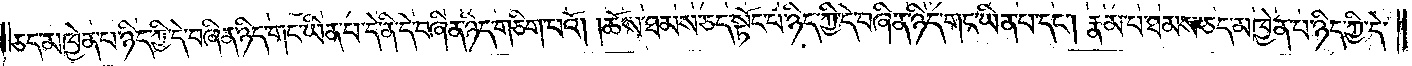ཅད་མཁྱེན་པ་ཉིད་ཀྱི་དེ་བཞིན་ཉིད་གང་ཡིན་པ་དེ་ནི་དེ་བཞིན་ཉིད་གཅིག་པའོ། །ཆོས་ཐམས་ཅད་སྟོང་པ་ཉིད་ཀྱི་དེ་བཞིན་ཉིད་གང་ཡིན་པ་དང༌། རྣམ་པ་ཐམས་ཅད་མཁྱེན་པ་ཉིད་ཀྱི་དེ་
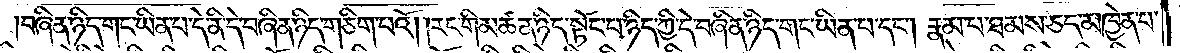བཞིན་ཉིད་གང་ཡིན་པ་དེ་ནི་དེ་བཞིན་ཉིད་གཅིག་པའོ། །རང་གི་མཚན་ཉིད་སྟོང་པ་ཉིད་ཀྱི་དེ་བཞིན་ཉིད་གང་ ཡིན་པ་དང༌། རྣམ་པ་ཐམས་ཅད་མཁྱེན་པ་
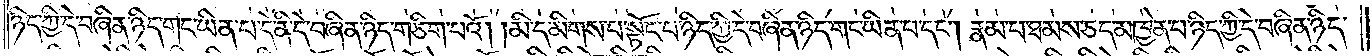ཉིད་ཀྱི་དེ་བཞིན་ཉིད་གང་ཡིན་པ་དེ་ནི་དེ་བཞིན་ཉིད་གཅིག་པའོ། །མི་དམིགས་པ་སྟོང་པ་ཉིད་ཀྱི་དེ་བཞིན་ཉིད་གང་ཡིན་པ་དང༌། རྣམ་པ་ཐམས་ཅད་མཁྱེན་པ་ཉིད་ཀྱི་དེ་བཞིན་ཉིད་
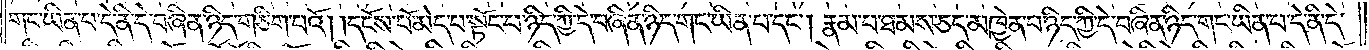གང་ཡིན་པ་དེ་ནི་དེ་བཞིན་ཉིད་གཅིག་པའོ། །དངོས་པོ་མེད་པ་སྟོང་པ་ཉིད་ཀྱི་དེ་བཞིན་ཉིད་གང་ཡིན་པ་དང༌། རྣམ་པ་ཐམས་ཅད་མཁྱེན་པ་ཉིད་ཀྱི་དེ་བཞིན་ཉིད་གང་ཡིན་པ་དེ་ནི་དེ་
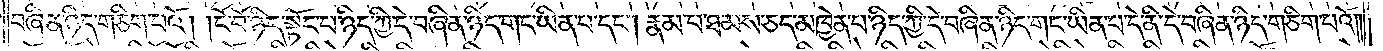བཞིན་ཉིད་གཅིག་པའོ། །ངོ་བོ་ཉིད་སྟོང་པ་ཉིད་ཀྱི་དེ་བཞིན་ཉིད་གང་ཡིན་པ་དང༌། རྣམ་པ་ཐམས་ཅད་མཁྱེན་པ་ཉིད་ཀྱི་དེ་བཞིན་ཉིད་གང་ཡིན་པ་དེ་ནི་དེ་བཞིན་ཉིད་གཅིག་པའོ༎
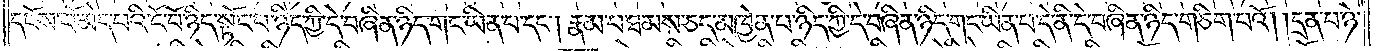དངོས་པོ་མེད་པའི་ངོ་བོ་ཉིད་སྟོང་པ་ཉིད་ཀྱི་དེ་བཞིན་ཉིད་གང་ཡིན་པ་དང༌། རྣམ་པ་ཐམས་ཅད་མཁྱེན་པ་ཉིད་ཀྱི་དེ་བཞིན་ཉིད་གང་ཡིན་པ་དེ་ནི་དེ་བཞིན་ཉིད་གཅིག་པའོ། །དྲན་པ་ཉེ་
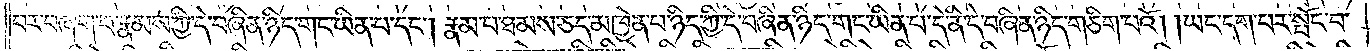བར་བཞག་པ་རྣམས་ཀྱི་དེ་བཞིན་ཉིད་གང་ཡིན་པ་དང༌། རྣམ་པ་ཐམས་ཅད་མཁྱེན་པ་ཉིད་ཀྱི་དེ་བཞིན་ཉིད་གང་ཡིན་པ་དེ་ནི་དེ་བཞིན་ཉིད་གཅིག་པའོ། །ཡང་དག་པར་སྤོང་བ་
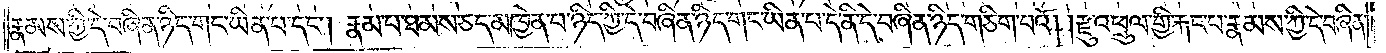རྣམས་ཀྱི་དེ་བཞིན་ཉིད་གང་ཡིན་པ་དང༌། རྣམ་པ་ཐམས་ཅད་མཁྱེན་པ་ཉིད་ཀྱི་དེ་བཞིན་ཉིད་གང་ཡིན་པ་དེ་ནི་དེ་བཞིན་ཉིད་གཅིག་པའོ། །རྫུ་འཕྲུལ་གྱི་རྐང་པ་རྣམས་ཀྱི་དེ་བཞིན་
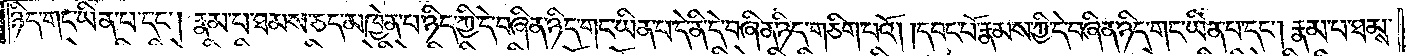ཉིད་གང་ཡིན་པ་དང༌། རྣམ་པ་ཐམས་ཅད་མཁྱེན་པ་ཉིད་ཀྱི་དེ་བཞིན་ཉིད་གང་ཡིན་པ་དེ་ནི་དེ་བཞིན་ཉིད་གཅིག་པའོ། །དབང་པོ་རྣམས་ཀྱི་དེ་བཞིན་ཉིད་གང་ཡིན་པ་དང༌། རྣམ་པ་ཐམས་
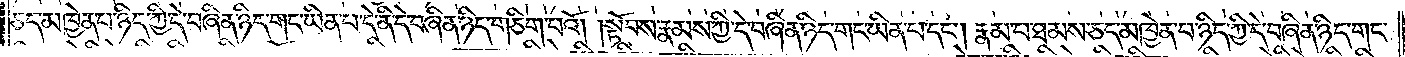ཅད་མཁྱེན་པ་ཉིད་ཀྱི་དེ་བཞིན་ཉིད་གང་ཡིན་པ་དེ་ནི་དེ་བཞིན་ཉིད་གཅིག་པའོ། །སྟོབས་རྣམས་ཀྱི་དེ་བཞིན་ཉིད་གང་ཡིན་པ་དང༌། རྣམ་པ་ཐམས་ཅད་མཁྱེན་པ་ཉིད་ཀྱི་དེ་བཞིན་ཉིད་གང་
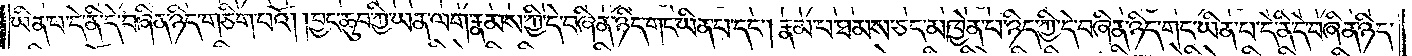ཡིན་པ་དེ་ནི་དེ་བཞིན་ཉིད་གཅིག་པའོ། །བྱང་ཆུབ་ཀྱི་ཡན་ལག་རྣམས་ཀྱི་དེ་བཞིན་ཉིད་གང་ཡིན་པ་དང༌། རྣམ་པ་ཐམས་ཅད་མཁྱེན་པ་ཉིད་ཀྱི་དེ་བཞིན་ཉིད་གང་ཡིན་པ་དེ་ནི་དེ་བཞིན་ཉིད་
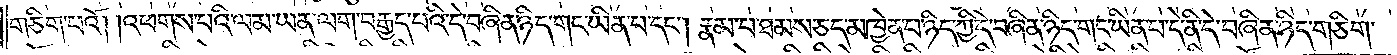གཅིག་པའོ། །འཕགས་པའི་ལམ་ཡན་ལག་བརྒྱད་པའི་དེ་བཞིན་ཉིད་གང་ཡིན་པ་དང༌། རྣམ་པ་ཐམས་ཅད་མཁྱེན་པ་ཉིད་ཀྱི་དེ་བཞིན་ཉིད་གང་ཡིན་པ་དེ་ནི་དེ་བཞིན་ཉིད་གཅིག་
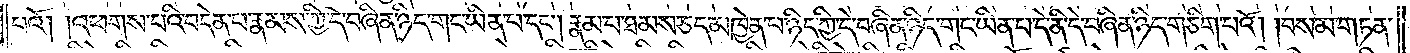པའོ། །འཕགས་པའི་བདེན་པ་རྣམས་ཀྱི་དེ་བཞིན་ཉིད་གང་ཡིན་པ་དང༌། རྣམ་པ་ཐམས་ཅད་མཁྱེན་པ་ཉིད་ཀྱི་དེ་བཞིན་ཉིད་གང་ཡིན་པ་དེ་ནི་དེ་བཞིན་ཉིད་གཅིག་པའོ། །བསམ་གཏན་
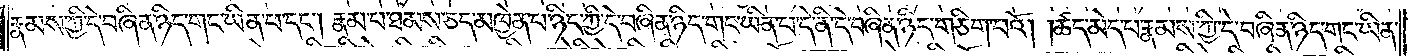རྣམས་ཀྱི་དེ་བཞིན་ཉིད་གང་ཡིན་པ་དང༌། རྣམ་པ་ཐམས་ཅད་མཁྱེན་པ་ཉིད་ཀྱི་དེ་བཞིན་ཉིད་གང་ཡིན་པ་དེ་ནི་དེ་བཞིན་ཉིད་གཅིག་པའོ། །ཚད་མེད་པ་རྣམས་ཀྱི་དེ་བཞིན་ཉིད་གང་ཡིན་
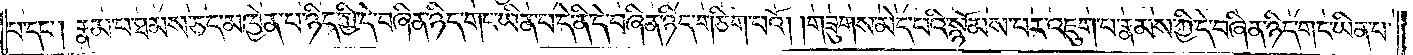པ་དང༌། རྣམ་པ་ཐམས་ཅད་མཁྱེན་པ་ཉིད་ཀྱི་དེ་བཞིན་ཉིད་གང་ཡིན་པ་དེ་ནི་དེ་བཞིན་ཉིད་གཅིག་པའོ། །གཟུགས་མེད་པའི་སྙོམས་པར་འཇུག་པ་རྣམས་ཀྱི་དེ་བཞིན་ཉིད་གང་ཡིན་པ་
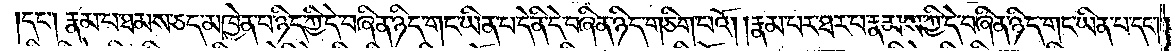དང༌། རྣམ་པ་ཐམས་ཅད་མཁྱེན་པ་ཉིད་ཀྱི་དེ་བཞིན་ཉིད་གང་ཡིན་པ་དེ་ནི་དེ་བཞིན་ཉིད་གཅིག་པའོ། །རྣམ་པར་ཐར་པ་རྣམས་ཀྱི་དེ་བཞིན་ཉིད་གང་ཡིན་པ་དང༌།
